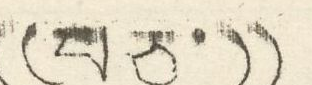(( བཅུ་ ))
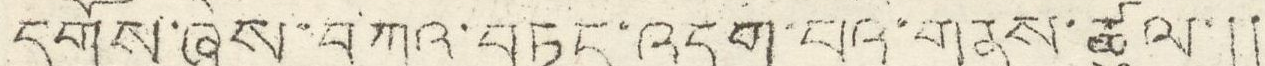དགོས་ཞེས་བཀའ་བཏང་འདུག་པའི་གནས་ཚུལ་།།
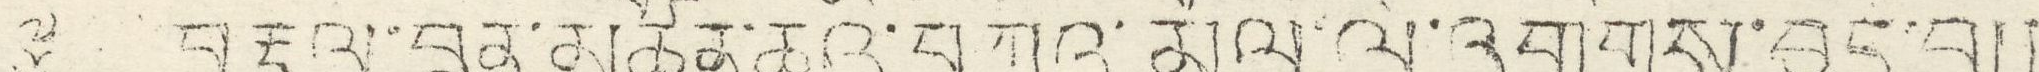༈ བརྡུལ་བྲན་མཚོན་ཆའི་བཀའ་མོལ་ལེ་འགྲིགས་བྱུང་བ།།
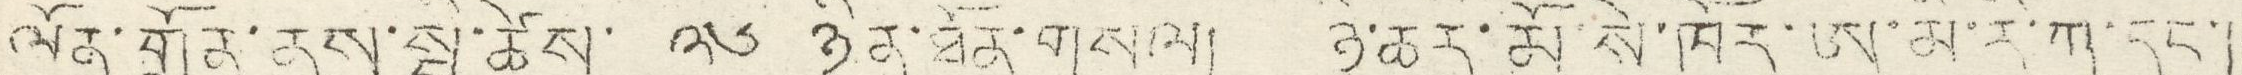ལོན་གྲོན་ནས་སྤྱི་ཚེས་ ༢༦ ཉིན་ཐོན་གསལ། ཉེ་ཆར་མོ་སེ་ཁོར་ཨ་མི་རི་ཀ་དང་།
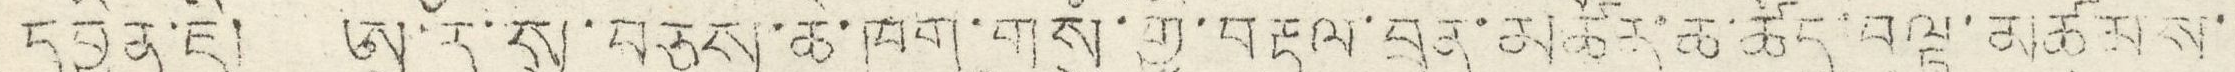དབྱིན་ཇི། ཨུ་རུ་སུ་བཅས་ཆེ་ཁག་གསུཾ་གྱི་བརྡུལ་བྲན་མཚོར་ཆ་ཚོད་བསྟ་མཚམས་
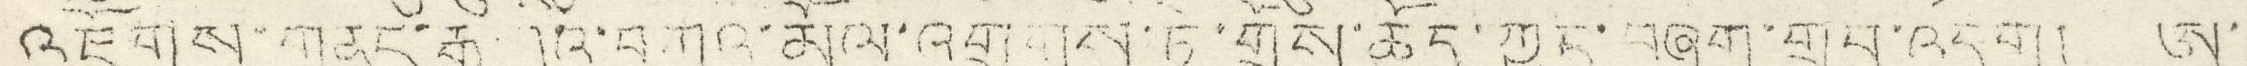འཇོགས་གནང་རྒྱུ འི་བཀའ་མོལ་འགྲིགས་ཏེ་གྲོས་ཆོད་ཀྱང་བཞག་གྲུབ་འདུག། ཨ་
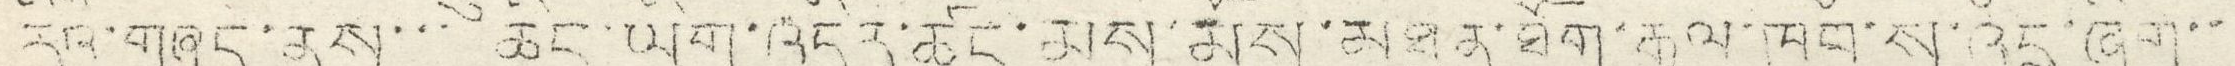རིའི་གཞུང་ནས་་་ ཆིང་ཡིག་འདིར་ཚང་མས་མོས་མཐུན་ཐོག་རྒྱལ་ཁབ་སུ་འདྲ་ཞིག་་
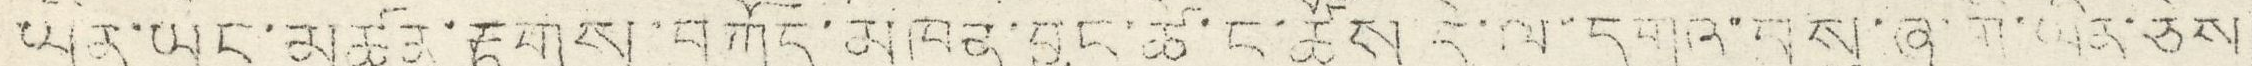ཡིན་ཡང་མཚན་རྟགས་བཀོད་མཁན་བྱུང་ཚེ་ང་ཚོས་དེ་ལ་དགའ་བསུ་ཞུ་གི་ཡིན་ཅེས
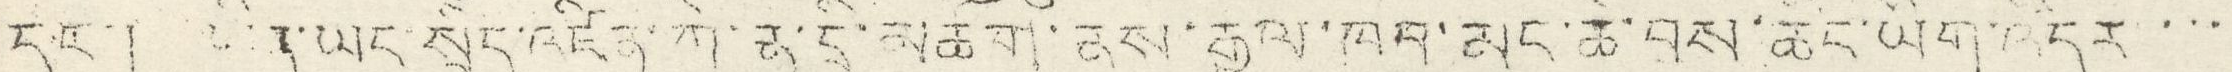དང་། ཡིན་ཡང་སྲིད་འཛིན་ཀེ་རུ་དྲི་མཆོག་ནས་རྒྱལ་ཁབ་མང་ཆེ་བས་ཆིང་ཡིག་འདིར་་་་
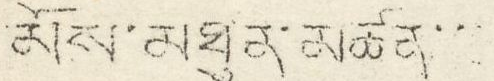མོས་མཐུན་མཚན་་་
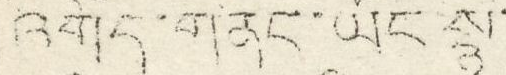འགོད་གནང་ཡོང་སྙཾ་
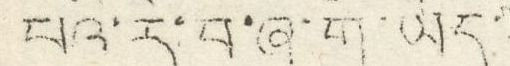པའི་རི་བ་ཞུ་གི་ཡོད་་
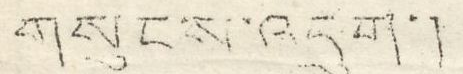གསུངས་འདུག་།
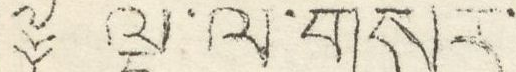༈ ལྡི་ལི་གསར་
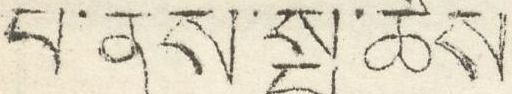པ་ནས་སྤྱི་ཚེས
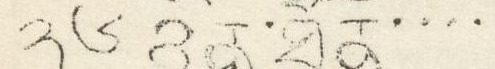༢༦ ཉིན་ཐོན་་་་
